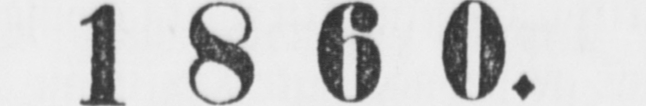1860.
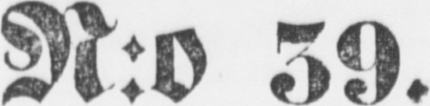N:o 59.
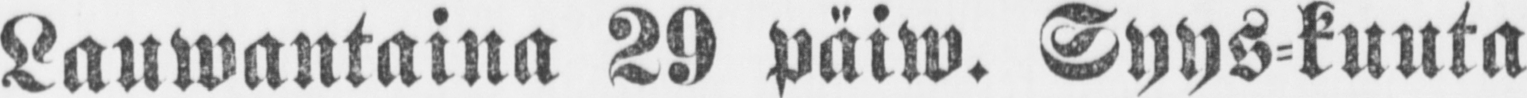Lauwantaina 29 päiw. Syys-kuuta
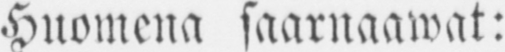Huomena saarnaawat:
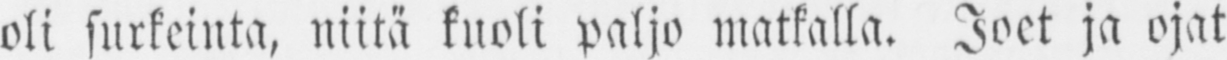oli surkeinta, niitä kuoli paljo matkalla. Joet ja ojat
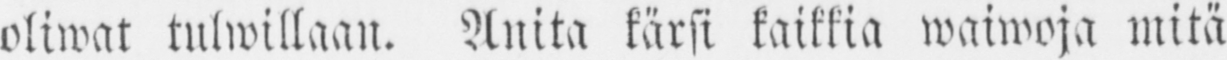oliwat tulwillaan. Anita kärsi kaikkia waiwoja mitä
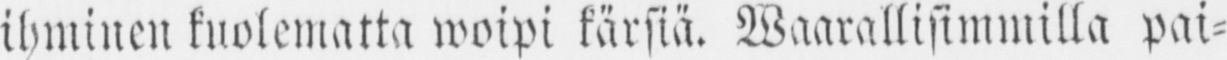ihminen kuolematta woipi kärsiä. Waarallisimmilla pai-
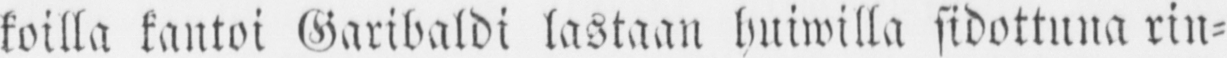koilla kantoi Garibaldi lastaan huiwilla sidottuna rin-
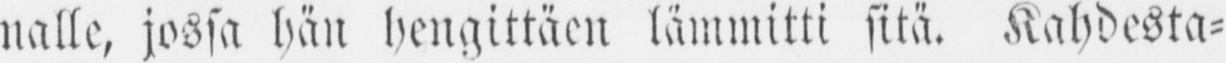nalle, jossa hän hengittäen lämmitti sitä. Kahdesta-
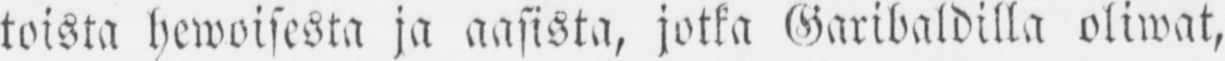toista hewoisesta ja aasista, jotka Garibaldilla oliwat,
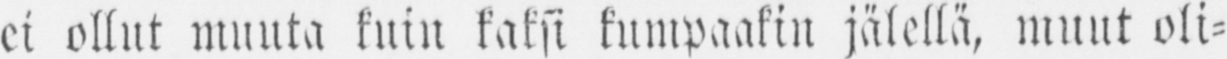ei ollut muuta kuin kaksi kumpaakin jälellä, muut oli-
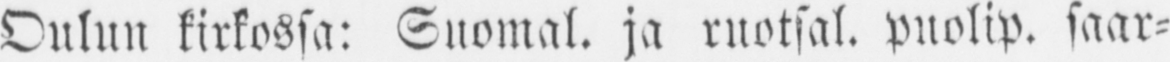Oulun kirkossa: Suomal. ja ruotsal. puolip. saar-
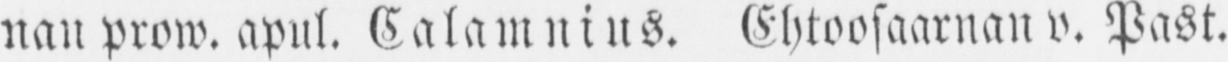nan prow. apul. Calamninus. Ehtoosaarnan v. Past.
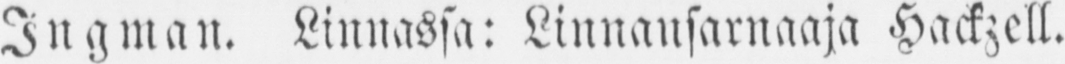Ingman. Linnassa: Linnansarnaaja Hackzell.
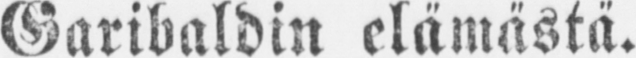Garibaldin elämästä.
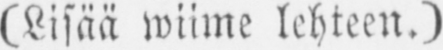(Lisää wiime lehteen.)
